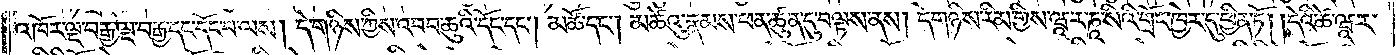འཁོར་ལྔ་བརྒྱ་ལྔ་བརྒྱ་དང་དོང་བ་ལས། དེ་གཉིས་ཀྱིས་འབབ་ཆུའི་དོང་དང༌། མཚོ་དང༌། མཚེའུ་རྣམས་ཕན་ཚུན་དུ་བལྟས་ནས། དེ་གཉིས་རིམ་གྱིས་ཝཱ་ར་ཎཱ་སིའི་གྲོང་ཁྱེར་དུ་ཕྱིན་ཏོ། །དེའི་ཚེ་ཝཱ་ར་
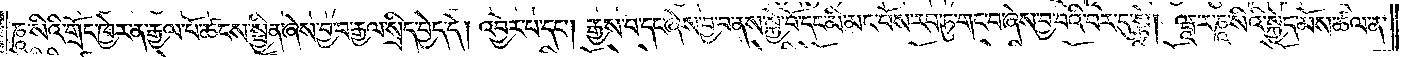ཎཱ་སིའི་གྲོང་ཁྱེར་ན་རྒྱལ་པོ་ཚངས་སྦྱིན་ཞེས་བྱ་བ་རྒྱལ་སྲིད་བྱེད་དེ། འབྱོར་བ་དང༌། རྒྱས་པ་དང་ཞེས་བྱ་བ་ནས་སྐྱེ་བོ་དང་མི་མང་པོས་རབ་ཏུ་གང་བ་ཞེས་བྱ་བའི་བར་དུ་སྟེ། ཝཱ་ར་ཎཱ་སིའི་སྐྱེད་མོས་ཚལ་ན་
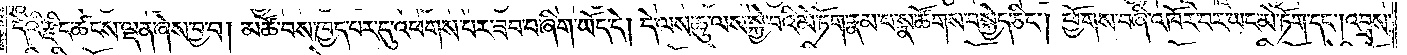དེའི་རྫིང་ཚངས་ལྡན་ཞེས་བྱ་བ། མཚོ་བས་ཁྱད་པར་དུ་འཕགས་པར་ཟབ་པ་ཞིག་ཡོད་དེ། དེ་ལས་ཆུ་ལས་སྐྱེ་བའི་མེ་ཏོག་རྣམ་པ་སྣ་ཚོགས་བསྐྱེད་ཅིང༌། ཕྱོགས་བཞི་འཁོར་བར་ཡང་མེ་ཏོག་དང༌། འབྲས་
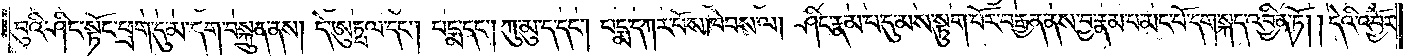བུའི་ཤིང་སྟོང་ཕྲག་དུ་མ་དག་བསྐྲུན་ནས། དེ་ཨུཏྤལ་དང༌། པདྨ་དང༌། ཀུ་མུ་ད་དང༌། པདྨ་དཀར་པོས་ཁེབས་ལ། ཤིང་རྣམ་པ་དུ་མས་སྟུག་པོར་བརྒྱན་ནས་བྱ་རྣམ་པ་མང་པོ་དག་སྐད་འབྱིན་ཏོ། །དེའི་འབྱོར་
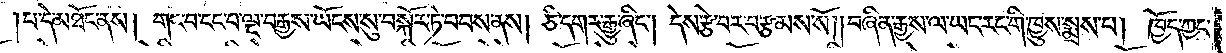པ་དེ་མཐོང་ནས། གང་བ་ངང་པ་ལྔ་བརྒྱས་ཡོངས་སུ་བསྐོར་ཏེ་བབས་ནས། ཅི་དགར་རྒྱུ་ཞིང༌། དེས་རྩེ་བར་བརྩམས་སོ། །བཞིན་རྒྱས་ལ་ཡང་རང་གི་ཁྱུས་སྨྲས་པ། ཁྱོད་ཀྱང་
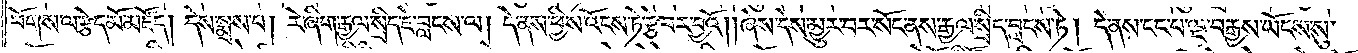བོགས་ལ་རྩེད་མོ་མཛོད། དེས་སྨྲས་པ། རེ་ཞིག་རྒྱལ་སྲིད་ཇེ་བླངས་ལ། དེ་ནས་ཕྱིས་འོངས་ཏེ་རྩེ་བར་བྱའོ། །ཞེས་དེས་མྱུར་བར་སོང་ནས་རྒྱལ་སྲིད་བླངས་ཏེ། དེ་ནས་ངང་པ་ལྔ་བརྒྱས་ཡོངས་སུ་
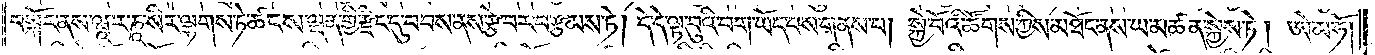བསྐོར་ནས་ཝཱ་ར་ཎཱ་སིར་ལྷགས་ཏེ་ཚངས་ལྡན་གྱི་རྫིང་དུ་བབས་ནས་རྩེ་བར་བརྩམས་ཏེ། དེ་དེ་ལྟ་བུའི་བག་ཡོད་པས་གནས་པ། སྐྱེ་བོའི་ཚོགས་ཀྱིས་མཐོང་ནས་ཡ་མཚན་སྐྱེས་ཏེ། ཨེ་མ་ཧོ།
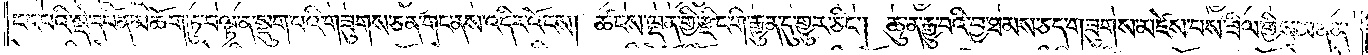ངང་པའི་སྡེ་དཔོན་མཆོག་ཏུ་བལྟ་ན་སྡུག་པའི་གཟུགས་ཅན་གང་ནས་འདིར་འོངས། ཚངས་ལྡན་གྱི་རྫིང་གི་རྒྱུན་དུ་གྱུར་ཅིང༌། ཆུ་ན་རྒྱུ་བའི་བྱ་ཐམས་ཅད་གཟུགས་མཛེས་པས་ཟིལ་གྱིས་མནན་
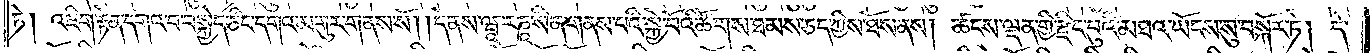ཏེ། འཇིག་རྟེན་དགའ་བ་བསྐྱེད་ཅིང་དགའ་མགུར་གནས་སོ། །དེ་ནས་ཝཱ་ར་ཎཱ་སི་ན་གནས་པའི་སྐྱེ་བོའི་ཚོགས་ཐམས་ཅད་ཀྱིས་ཐོས་ནས། ཚངས་ལྡན་གྱི་རྫིང་བུའི་མཐའ་ཡོངས་སུ་བསྐོར་ཏེ། དེ་
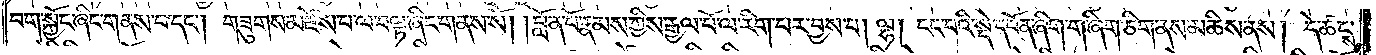བག་སྐྱོང་ཞིང་གནས་པ་དང༌། གཟུགས་མཛེས་པ་ལ་བལྟ་ཞིང་གནས་སོ། །བློན་པོ་རྣམས་ཀྱིས་རྒྱལ་པོ་ལ་རིག་པར་བྱས་པ། ལྷ། ངང་པའི་སྡེ་དཔོན་ཞིག་ག་ཞིག་ཅིག་ནས་མཆིས་ནས། དེ་ཚངས་
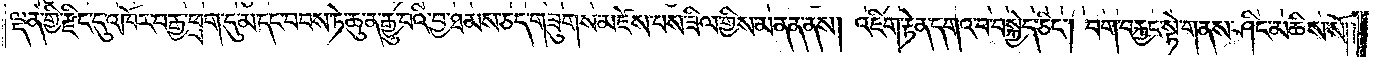ལྡན་གྱི་རྫིང་དུ་འཁོར་བརྒྱ་ཕྲག་དུ་མ་དང་བབས་ཏེ་ཆུ་ན་རྒྱུ་བའི་བྱ་ཐམས་ཅད་གཟུགས་མཛེས་པས་ཟིལ་གྱིས་མནན་ནས། འཇིག་རྟེན་དགའ་བ་བསྐྱེད་ཅིང༌། བག་བརྐྱང་སྟེ་གནས་ཤིང་མཆིས་སོ། །
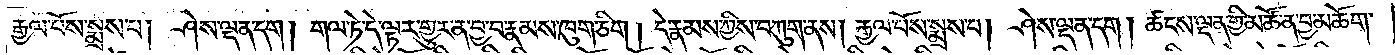རྒྱལ་པོས་སྨྲས་པ། ཤེས་ལྡན་དག། གལ་ཏེ་དེ་ལྟར་གྱུར་ན་བྱ་བ་རྣམས་ཁུག་ཅིག །དེ་རྣམས་ཀྱིས་བཀུག་ནས། རྒྱལ་པོས་སྨྲས་པ། ཤེས་ལྡན་དག། ཚངས་ལྡན་གྱི་མཚོ་ན་བྱ་མཆོག་
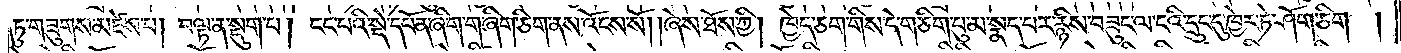ཏུ་གཟུགས་མཛེས་པ། བལྟ་ན་སྡུག་པ། ངང་པའི་སྡེ་དཔོན་ཞིག་ག་ཞིག་ཅིག་ནས་འོངས་སོ། །ཞེས་ཐོས་ཀྱི། ཁྱེད་ཅག་གིས་དེ་གཅིག་པུ་མ་སྣད་པར་རྙིས་བཟུང་ལ་ངའི་དྲུང་དུ་ཁྱེར་ཏེ་ཤོག་ཅིག །
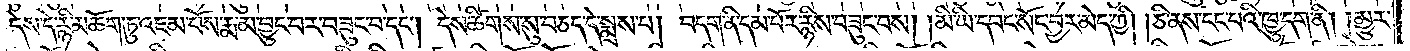དེས་དེ་རྙི་མ་ཆག་ཏུ་འཇམ་པོས་རྨ་མ་བྱུང་བར་བཟུང་བ་དང༌། དེས་ཚིགས་སུ་བཅད་དེ་སྨྲས་པ། བདག་ནི་དམ་པོས་རྙིས་བཟུང་བས། མི་ཡི་དབང་སོང་བྱར་མེད་ཀྱི། །ཅི་ནས་ངང་པའི་ཁྱུ་དག་ནི། །མྱུར་
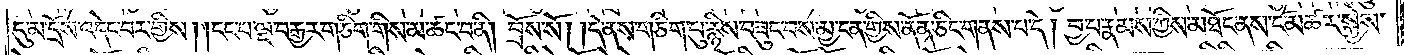དུ་མ་དྲོས་འདེང་བར་གྱིས། །ངང་པ་ལྔ་བརྒྱར་གཅིག་གིས་མ་ཚང་བ་ནི། བྲོས་སོ། །དེ་ནས་གཅིག་པུ་རྙིས་བཟུང་བས་མྱ་ངན་གྱིས་ནོན་ཅིང་གནས་པ་དེ། བྱ་བ་རྣམས་ཀྱིས་མཐོང་ནས་ངོ་མཚར་སྐྱེས་
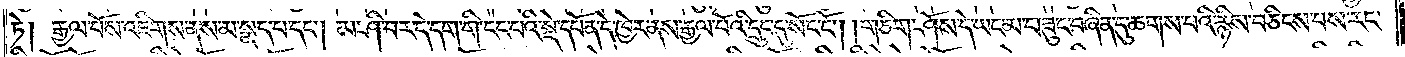ཏེ། རྒྱལ་པོས་འཇིགས་ནས་མ་སྣད་པ་དང༌། མ་ཤི་བར་དེ་དག་གི་ངང་པའི་སྡེ་དཔོན་དེ་ཁྱེར་ནས་རྒྱལ་པོའི་དྲུང་དུ་སོང་ངོ༌། པས་རང་ཉིད་སོང་ངོ༌། །གཅིག་ཤོས་དེ་ཡང་གཟུང་བཞིན་དུ་ཆགས་པའི་རྙིས་བཅིངས་པས་རང་
